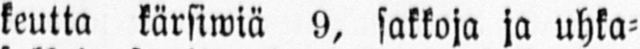keutta kärsiwiä 9, sakkoja ja uhka-
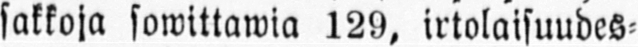sakkoja sowittawia 129, irtolaisuudes-
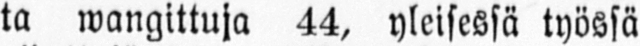ta wangittuja 44, yleisessä työssä
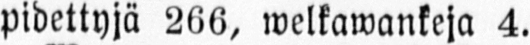pidettyjä 266, welkawankeja 4.
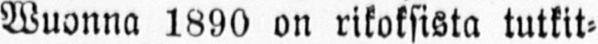Wuonna 1890 on rikoksista tutkit-
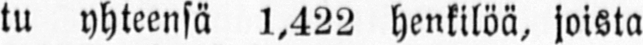tu yhteensä 1,422 henkilöä, joista
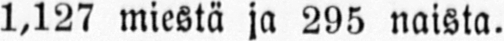1,127 miestä ja 295 naista.
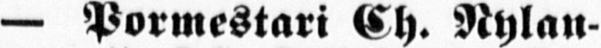— Pormestari Ch. Nylan-
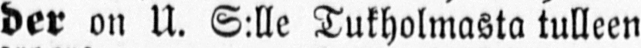der on U. S:lle Tukholmasta tulleen
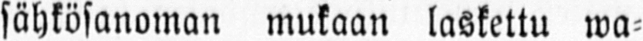sähkösanoman mukaan laskettu wa-
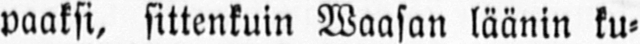paaksi, sittenkuin Waasan läänin ku-
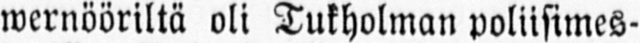wernööriltä oli Tukholman poliisimes-
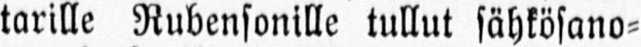tarille Rubensonille tullut sähkösano-
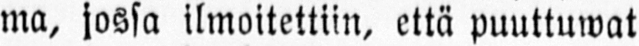ma, jossa ilmoitettiin, että puuttuwat
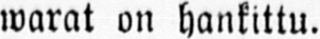warat on hankittu.
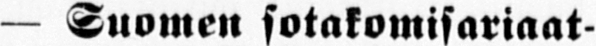— Suomen sotakomisariaat-
